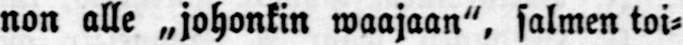non alle „johonkin waajaan", salmen toi-
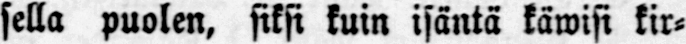sella puolen, siksi kuin isäntä käwisi kir-
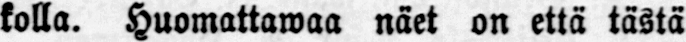kolla. Huomattawaa näet on että tästä
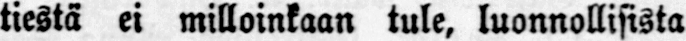tiestä ei milloinkaan tule, luonnollisista
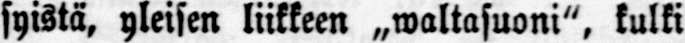syistä, yleisen liikkeen „waltasuoni", kulki
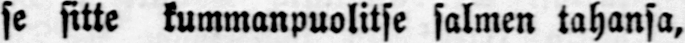se sitte kummanpuolitse salmen tahansa,
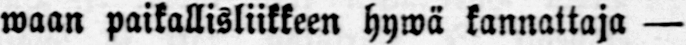waan paikallisliikkeen hywä kannattaja —
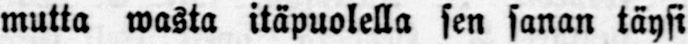mutta wasta itäpuolella sen sanan täysi
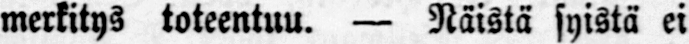merkitys toteentuu. — Näistä syistä ei
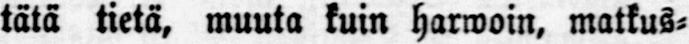tätä tietä, muuta kuin harwoin, matkus-
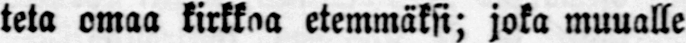teta omaa kirkkoa etemmäksi; joka muualle
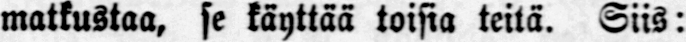matkustaa, se käyttää toisia teitä. Siis:
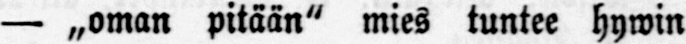— „oman pitään" mies tuntee hywin
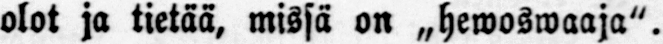olot ja tietää, missä on „hewoswaaja".
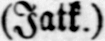(Jatk.)
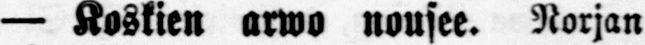— Koskien arwo nousee. Norjan
